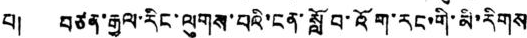པ། བཙན་རྒྱལ་རིང་ལུགས་པའི་ངན་སློབ་འོག་རང་གི་མི་རིགས
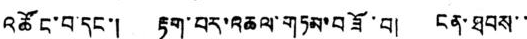འཚོང་བ་དང་། རྟག་པར་འཆལ་གཏམ་བཟོ་བ། ངན་ཐབས་་
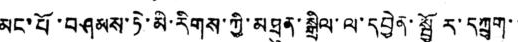མང་པོ་བཤམས་ཏེ་མི་རིགས་ཀྱི་མཐུན་སྒྲིལ་ལ་དབྱེན་སྦྱོར་དཀྲུག་་
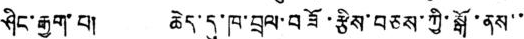ཤིང་རྒྱག་པ། ཆེད་དུ་ཁ་བྲལ་བཟོ་རྩིས་བཅས་ཀྱི་སྒོ་ནས་་
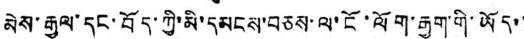མེས་རྒྱལ་དང་བོད་ཀྱི་མི་དམངས་བཅས་ལ་ངོ་ལོག་རྒྱག་གི་ཡོད་་
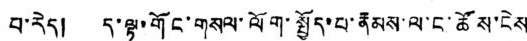པ་རེད། ད་ལྟ་གོང་གསལ་ལོག་སྤྱོད་པ་རྣམས་ལ་ང་ཚོས་ངེས་
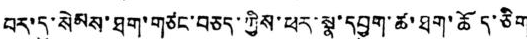བར་དུ་སེམས་ཐག་གཙང་བཅད་ཀྱིས་ཕར་སྣ་དབྱུག་ཚ་ཐག་ཆོད་ཅིག
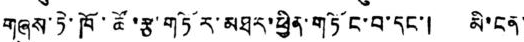གཞུས་ཏེ་ཁོ་ཚོ་རྩ་གཏོར་མཐར་ཕྱིན་གཏོང་བ་དང་། མི་ངན་
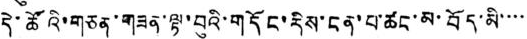དེ་ཚོའི་གཅན་གཟན་ལྟ་བུའི་གདོང་རིས་ངན་པ་ཚང་མ་བོད་མི་་་་
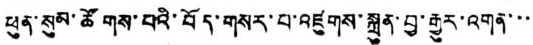ཕུན་སུམ་ཚོགས་པའི་བོད་གསར་བ་འཛུགས་སྐྲུན་བྱ་རྒྱུར་འགན་་་
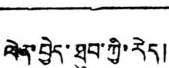ལེན་བྱེད་ཐུབ་ཀྱི་རེད།
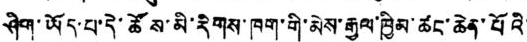ཤིག་ཡོད་པ་དེ་ཚོས་མི་རིགས་ཁག་གི་མེས་རྒྱལ་ཁྱིམ་ཚང་ཆེན་པོའི་
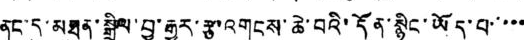ནང་དུ་མཐུན་སྒྲིལ་བྱ་རྒྱུར་རྩ་འགངས་ཆེ་བའི་དོན་སྙིང་ཡོད་པ་་་་་
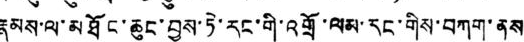རྣམས་ལ་མཐོང་ཆུང་བྱས་ཏེ་རང་གི་འགྲོ་ལམ་རང་གིས་བཀག་ནས
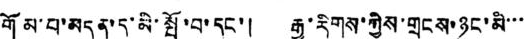གོམ་པ་མདུན་དུ་མི་སྤོ་བ་དང་། རྒྱ་རིགས་ཀྱིས་གྲངས་བྱུང་མི་་་
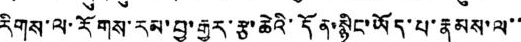རིགས་ལ་རོགས་རམ་བྱ་རྒྱུར་རྩ་ཆེའི་དོན་སྙིང་ཡོད་པ་རྣམས་ལ་་
